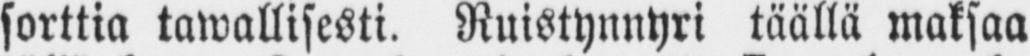sorttia tawallisesti. Ruistynnyri täällä maksaa
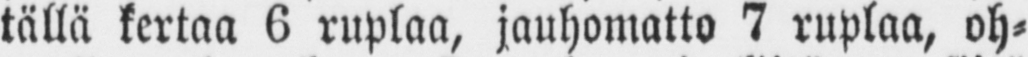tällä kertaa 6 ruplaa, jauhomatto 7 ruplaa, oh-
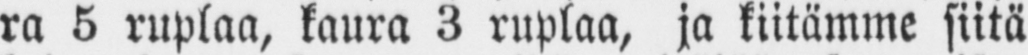ra 6 ruplaa, kaura 3 ruplaa, ja kiitämme siitä
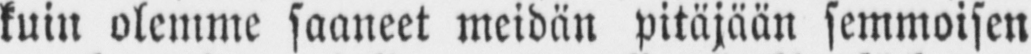kuin olemme saaneet meidän pitäjään semmoisen
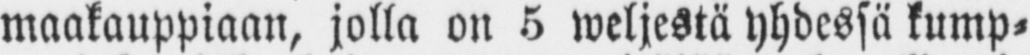maakauppiaan, jolla on 5 weljestä yhdessä kump-
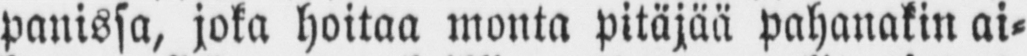panissa, joka hoitaa monta pitäjää pahanakin ai-
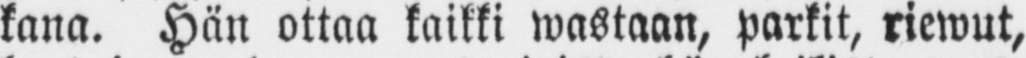kana. Hän ottaa kaikki wastaan, parkit, riewut,
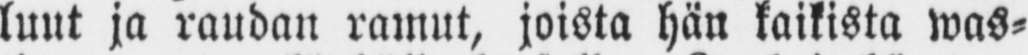luut ja raudan ramut, joista hän kaikista was-
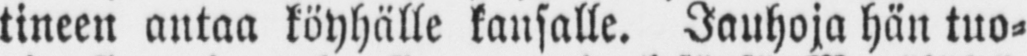tineen antaa köyhälle kansalle. Jauhoja hän tuo-
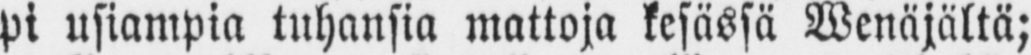pi usiampia tuhansia mattoja kesässä Wenäjältä;
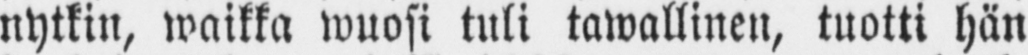nytkin, waikka wuosi tuli tawallinen, tuotti hän
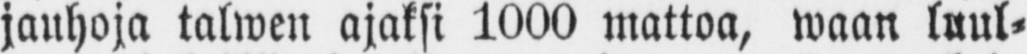jauhoja talwen ajaksi 1000 mattoa, waan luul-
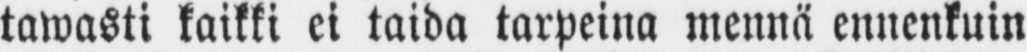tawasti kaikki ei taida tarpeina mennä ennenkuin
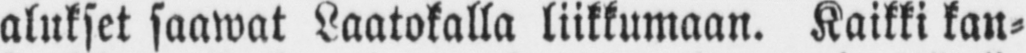alukset saawat Laatokalla liikkumaan. Kaikki kan-
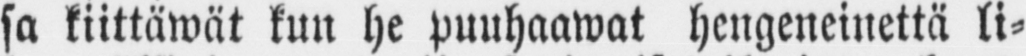sa kiittäwät kun he puuhaawat hengeneinettä li-
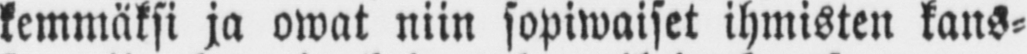kemmäksi ja owat niin sopiwaiset ihmisten kans-
